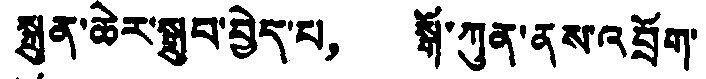སྐྲུན་ཆེར་སྒྲུབ་བྱེད་པ， སྒོ་ཀུན་ནས་འབྲོག་
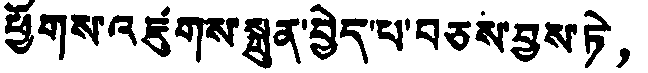ཕྱོགས་འཛུགས་སྐྲུན་བྱེད་པ་བཅས་བྱས་ཏེ，
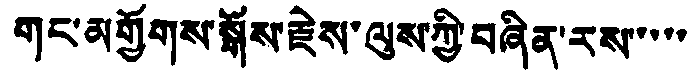གང་མགྱོགས་སྒོས་རྗེས་ལུས་ཀྱི་བཞིན་རས་་་་་
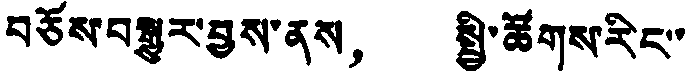བཅོས་བསྒྱུར་བྱས་ནས， སྤྱི་ཚོགས་རིང་་
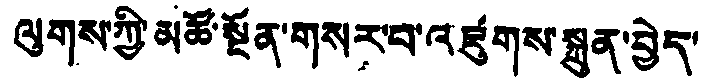ལུགས་ཀྱི་མཚོ་སྔོན་གསར་བ་འཛུགས་སྐྲུན་བྱེད་
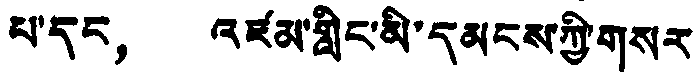པ་དང， འཛམ་གླིང་མི་དམངས་ཀྱི་གསར
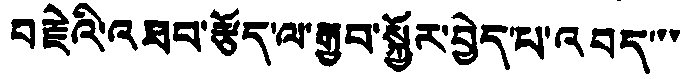བརྗེའི་འཐབ་རྩོད་ལ་རྒྱབ་སྐྱོར་བྱེད་པ་འབད་་་
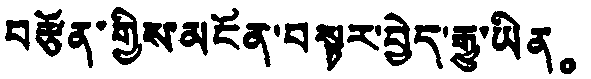བརྩོན་གྱིས་མངོན་བསྟར་བྱེད་རྒྱུ་ཡིན。
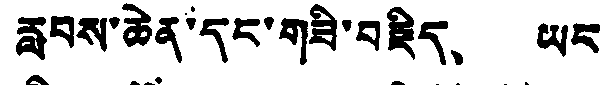རླབས་ཆེན་དང་གཟི་བརྗིད、 ཡང
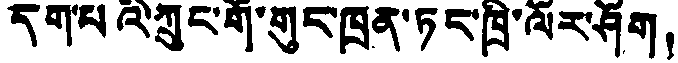དག་པའི་ཀྲུང་གོ་གུང་ཁྲན་ཏང་ཁྲི་ལོར་ཤོག！
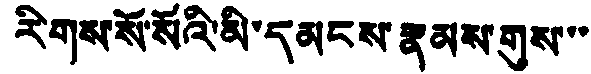རིགས་སོ་སོའི་མི་དམངས་རྣམས་གུས་་་
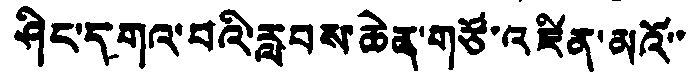ཤིང་དགའ་བའི་རླབས་ཆེན་གཙོ་འཛིན་མའོ་་
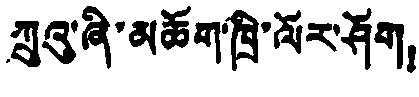ཀྲུའུ་ཞི་མཆོག་ཁྲི་ལོར་ཤོག！
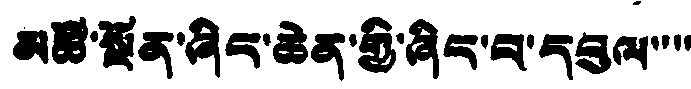མཚོ་སྔོན་ཞིང་ཆེན་གྱི་ཞིང་བ་དབུལ་་་་
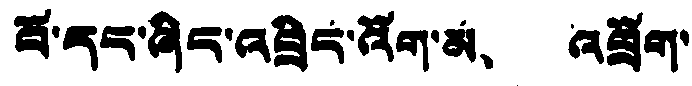བོ་དང་ཞིང་འབྲིང་འོག་མ、 འབྲོག་
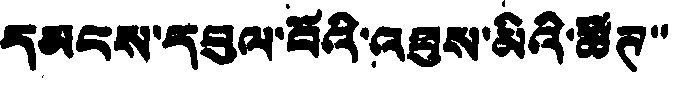དམངས་དབུལ་བོའི་འཐུས་མིའི་ཚོཊ་་
